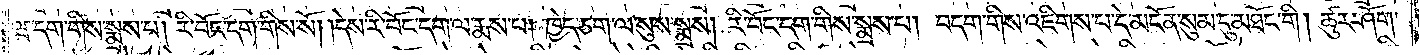ཝ་དག་གིས་སྨྲས་པ། རི་བོང་དག་གིས་སོ། །དེས་རི་བོང་དག་ལ་རྨས་པ། ཁྱེད་ཅག་ལ་སུས་སྨྲས། རི་བོང་དག་གིས་སྨྲས་པ། བདག་གིས་འཇིགས་པ་དེ་མངོན་སུམ་དུ་མཐོང་གི། ཚུར་ཤོག་
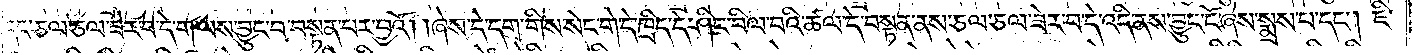དང་ཅལ་ཅལ་ཟེར་བ་དེ་ག་ལས་བྱུང་བ་བསྟན་པར་བྱའོ། །ཞེས་དེ་དག་གིས་སེང་གེ་དེ་ཁྲིད་དེ་ཤིང་བིལ་བའི་ཚལ་དེ་བསྟན་ནས་ཅལ་ཅལ་ཟེར་བ་དེ་འདི་ནས་བྱུང་ངོ་ཞེས་སྨྲས་པ་དང༌། ཇི་
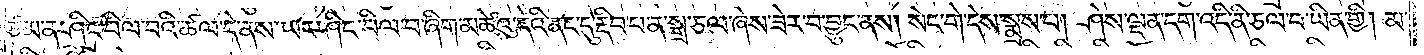ཙམ་ན་ཤིང་བིལ་བའི་ཚལ་དེ་ནས་ཡང་ཤིང་བིལ་བ་ཞིག་མཚེའུ་དེའི་ནང་དུ་རྡིབ་པ་ན་སྒྲ་ཅལ་ཞེས་ཟེར་བ་བྱུང་ནས། སེང་གེ་དེས་སྨྲས་པ། ཤེས་ལྡན་དག་འདི་ནི་ཅལ་བ་ཡིན་གྱི། མ་
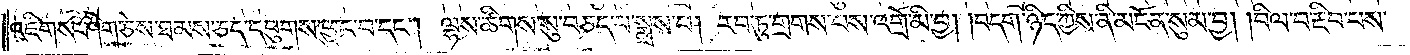འཇིགས་ཤིག་ཅེས་ཐམས་ཅད་དབུགས་ཕྱུང་བ་དང༌། ལྷས་ཚིགས་སུ་བཅད་པ་སྨྲས་པ། རབ་ཏུ་གྲགས་པས་འགྲོ་མི་བྱ། །བདག་ཉིད་ཀྱིས་ནི་མངོན་སུམ་བྱ། །བིལ་བ་རྡིབ་པས་
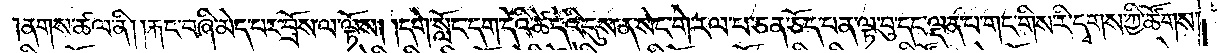ནགས་ཚལ་ནི། །རྐང་བཞི་མེད་བར་བྲོས་ལ་ལྟོས། །དགེ་སློང་དག་དེའི་ཚེ་དེའི་དུས་ན་སེང་གེ་རལ་པ་ཅན་ཅོད་པན་ལྟ་བུ་དང་ལྡན་པ་གང་གིས་རི་དྭགས་ཀྱི་ཚོགས་
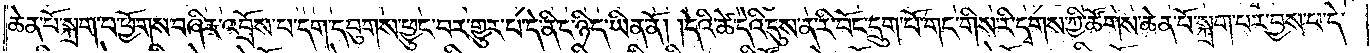ཆེན་པོ་སྐྲག་པ་ཕྱོགས་བཞིར་འབྲོས་པ་དག་དབུགས་ཕྱུང་བར་གྱུར་པ་དེ་ནི་ང་ཉིད་ཡིན་ནོ། །དེའི་ཚེ་དེའི་དུས་ན་རི་བོང་དྲུག་པོ་གང་གིས་རི་དྭགས་ཀྱི་ཚོགས་ཆེན་པོ་སྐྲག་པར་བྱས་པ་དེ་
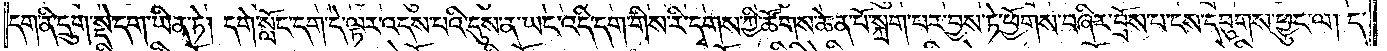དག་ནི་དྲུག་སྡེ་དག་ཡིན་ཏེ། དགེ་སློང་དག་དེ་ལྟར་འདས་པའི་དུས་ན་ཡང་འདི་དག་གིས་རི་དྭགས་ཀྱི་ཚོགས་ཆེན་པོ་སྐྲག་པར་བྱས་ཏེ་ཕྱོགས་བཞིར་བྲོས་པ་ངས་དབུགས་ཕྱུང་ལ། ད་
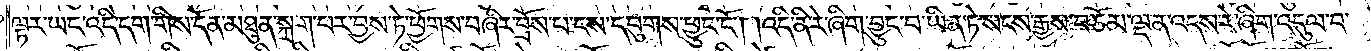ལྟར་ཡང་འདི་དག་གིས་དོན་མཐུན་སྐྲག་པར་བྱས་ཏེ་ཕྱོགས་བཞིར་བྲོས་པ་ངས་དབུགས་ཕྱུང་ངོ༌། །འདི་ནི་རེ་ཞིག་བྱུང་བ་ཡིན་ཏེ་སངས་རྒྱས་བཅོམ་ལྡན་འདས་རེ་ཞིག་འདུལ་བ་
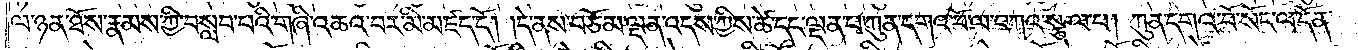ལ་ཉན་ཐོས་རྣམས་ཀྱི་བསླབ་པའི་གཞི་འཆའ་བར་མི་མཛད་དོ། །དེ་ནས་བཅོམ་ལྡན་འདས་ཀྱིས་ཚེ་དང་ལྡན་པ་ཀུན་དགའ་བོ་ལ་བཀའ་སྩལ་པ། ཀུན་དགའ་བོ་སོང་ལ་དོན་
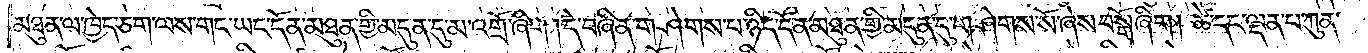མཐུན་ལ་ཁྱེད་ཅག་ལས་གང་ཡང་དོན་མཐུན་གྱི་མདུན་དུ་མ་འགྲོ་ཞིག །དེ་བཞིན་གཤེགས་པ་ཉིད་དོན་མཐུན་གྱི་མདུན་དུ་གཤེགས་སོ་ཞེས་བསྒོ་ཞིག། ཚེ་དང་ལྡན་པ་ཀུན་
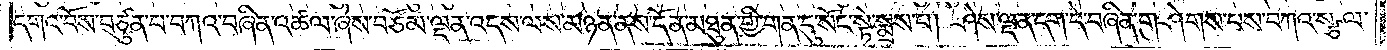དགའ་བོས་བཙུན་པ་བཀའ་བཞིན་འཚལ་ཞེས་བཅོམ་ལྡན་འདས་ལས་མཉན་ནས་དོན་མཐུན་གྱི་གན་དུ་སོང་སྟེ་སྨྲས་པ། ཤེས་ལྡན་དག་དེ་བཞིན་གཤེགས་པས་བཀའ་སྩལ་
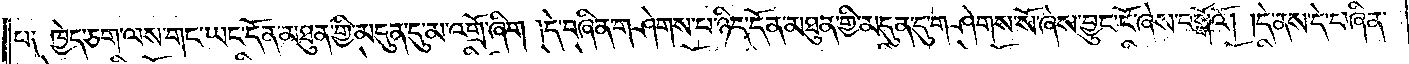པ། ཁྱེད་ཅག་ལས་གང་ཡང་དོན་མཐུན་གྱི་མདུན་དུ་མ་འགྲོ་ཞིག །དེ་བཞིན་གཤེགས་པ་ཉིད་དོན་མཐུན་གྱི་མདུན་དུ་གཤེགས་སོ་ཞེས་བྱུང་ངོ་ཞེས་བསྒོའོ། །དེ་ནས་དེ་བཞིན་
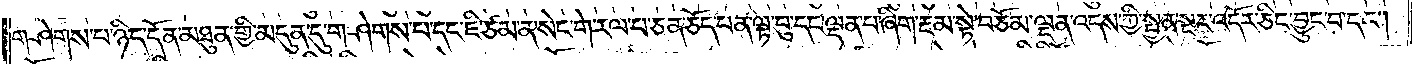གཤེགས་པ་ཉིད་དོན་མཐུན་གྱི་མདུན་དུ་གཤེགས་པ་དང་ཇི་ཙམ་ན་སེང་གེ་རལ་པ་ཅན་ཅོད་པན་ལྟ་བུ་དང་ལྡན་པ་ཞིག་རྔམ་སྟེ་བཅོམ་ལྡན་འདས་ཀྱི་སྤྱན་སྔར་འདོར་ཅིང་བྱུང་བ་དང༌།
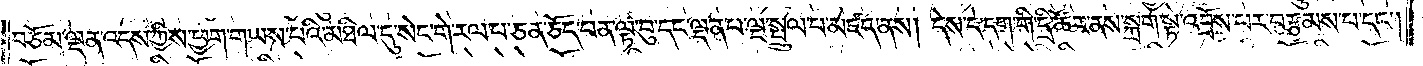བཅོམ་ལྡན་འདས་ཀྱིས་ཕྱག་གཡས་པའི་མཐིལ་དུ་སེང་གེ་རལ་པ་ཅན་ཅོད་པན་ལྟ་བུ་དང་ལྡན་པ་ལྔ་སྤྲུལ་པ་མཛད་ནས། དེས་དེ་དག་གི་དྲི་ཚོར་ནས་སྐྲག་སྟེ་འབྲོས་པར་བརྩམས་པ་དང༌།
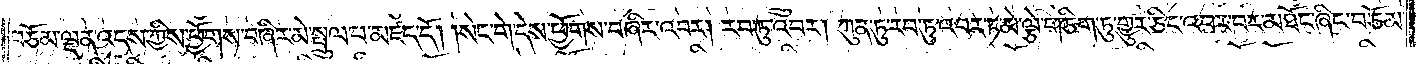ལྡན་འདས་ཀྱིས་ཕྱོགས་བཞིར་མེ་སྤྲུལ་པ་མཛད་དོ། །སེང་གེ་དེས་ཕྱོགས་བཞིར་འབར། རབ་ཏུ་འབར། ཀུན་ཏུ་རབ་ཏུ་འབར་ཏེ་མེ་ལྕེ་གཅིག་ཏུ་གྱུར་ཅིང་འབར་བར་མཐོང་ཞིང་བཅོམ་
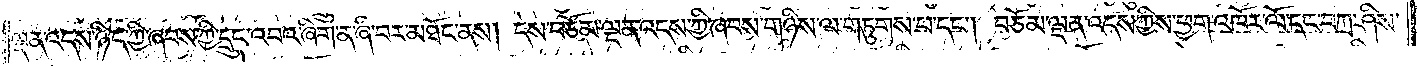ལྡན་འདས་ཉིད་ཀྱི་ཞབས་ཀྱི་དྲུང་འབའ་ཞིག་ན་ཞི་བར་མཐོང་ནས། དེས་བཅོམ་ལྡན་འདས་ཀྱི་ཞབས་གཉིས་ལ་གཏུགས་པ་དང༌། བཅོམ་ལྡན་འདས་ཀྱིས་ཕྱག་འཁོར་ལོ་དང་བཀྲ་ཤིས་
